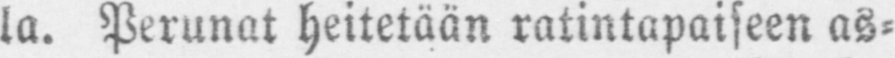la. Perunat heitetään ratintapaiseen as-
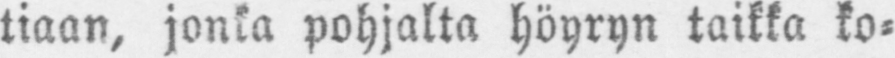tiaan, jonka pohjalta höyryn taikka ko-
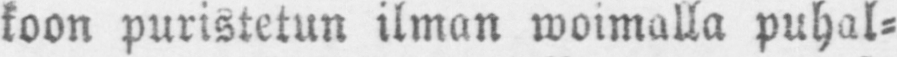koon puristetun ilman woimalla puhal-
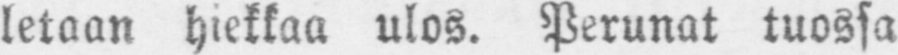letaan hiekkaa ulos. Perunat tuossa
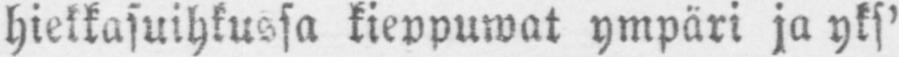hiekkasuihkussa kieppuwat ympäri ja yks'
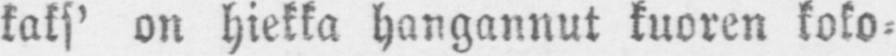kaks' on hiekka hangannut kuoren koko-
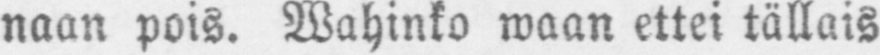naan pois. Wahinko maan ettei tällais
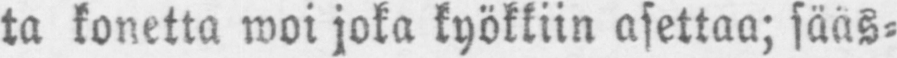ta konetta woi joka kyökkiin asettaa; sääs-
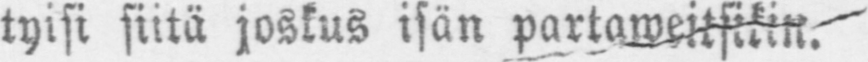tyisi siitä joskus isän partaweitsikin.
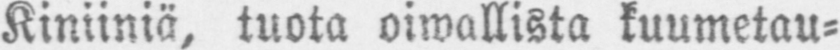Kiniiniä, tuota oiwallista kuumetau-
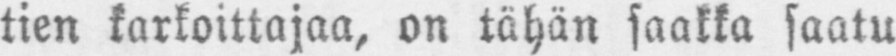tien kartoittajaa, on tähän saakka saatu
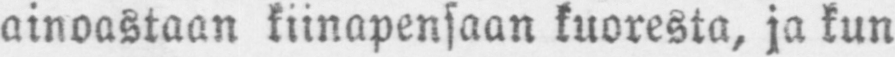ainoastaan kiinapensaan kuoresta, ja kun
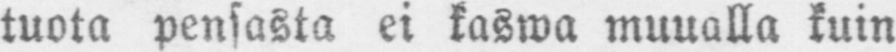tuota pensasta ei kaswa muualla kuin
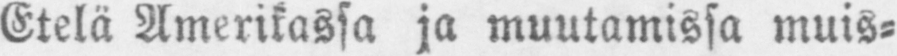Etelä Amerikassa ja muutamissa muis-
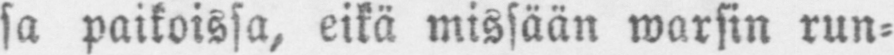sa paikoissa, eikä missään warsin run-
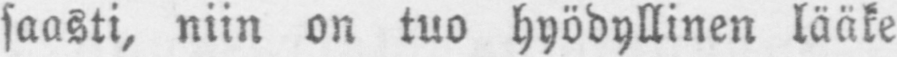saasti, niin on tuo hyödyllinen lääke
